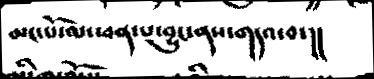མང་པོ་ལ་ཕན་པ་བྱུང་ནས་གདའ་བ་།།
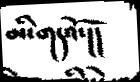མི་གདའོ་།།
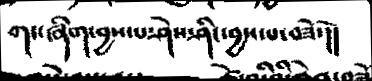གང་ཞིག་བྱས་པ་ཤེས་ཤིང་བྱས་པ་བཟོ་།།
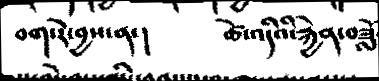བག་རེ་བྱས་ནས་།   ཚེ་འདིའི་རྐྱེན་བཟློ
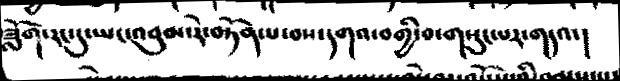ཟློག་རང་དུ་ཡང་འབུམ་རེ་བཏོན་པ་བས་དགའ་བགྱི་བ་གསུང་པར་གདའ་།
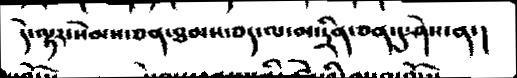དེ་ལྟར་སེམས་ཅན་ཐམས་ཅད་ལ་མ་དྲིན་ཅན་དུ་ཤེས་ན་།
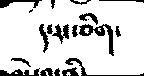ད་རང་ཅིག་
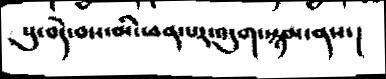སུ་བདེ་བས་མི་ཕན་པར་འདུག་སྙམ་ནས་།
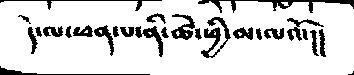དེ་ལ་ཕན་པ་ནི་ཚེ་ཕྱི་མ་ལའོ་།།
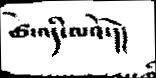ཚེ་འདི་ལའོ་།།
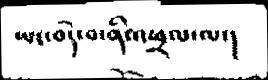ཡང་བདེ་བ་ནི་འཕྲལ་ལ་།
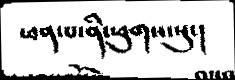ཕན་པ་ནི་ཕུགས་སུ་།
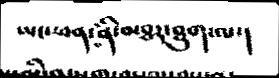ཡང་ཕན་པ་ནི་མཐར་ཐུག་ལ་།
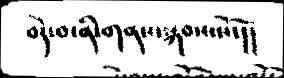བདེ་བ་ནི་གནས་སྐབས་སོ་།།
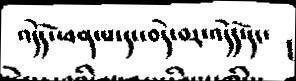འདོད་ཕན་པ་དང་བདེ་བར་འདོད་དང་
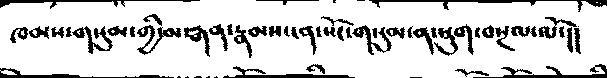ཁམས་གསུམ་གྱི་མ་རྒན་རྣམས་ངན་སོང་གསུམ་ན་སྡུག་བསྔལ་ལོ་།།
